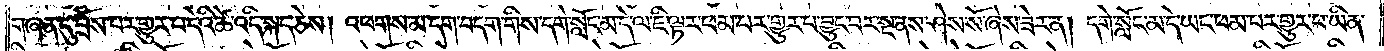གཞན་དུ་བྲོས་པར་གྱུར་པ་དེའི་ཚེ་འདི་སྐད་ཅེས། འཕགས་མ་དག་བདག་གིས་དགེ་སློང་མ་དེ་ལ་ཇི་ལྟར་ཕམ་པར་གྱུར་པ་བྱུང་བར་སྔ་ནས་ཤེས་སོ་ཞེས་ཟེར་ན། དགེ་སློང་མ་དེ་ཡང་ཕམ་པར་གྱུར་པ་ཡིན་
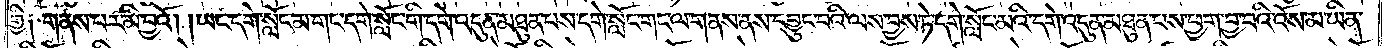གྱི༑ གནས་པར་མི་བྱའོ། །ཡང་དགེ་སློང་མ་གང་དགེ་སློང་གི་དགེ་འདུན་མཐུན་པས་དགེ་སློང་གང་ལ་གནས་ནས་དབྱུང་བའི་ལས་བྱས་ཏེ་དགེ་སློང་མའི་དགེ་འདུན་མཐུན་པས་ཕྱག་བྱ་བའི་འོས་མ་ཡིན་
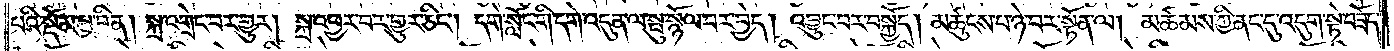པའི་སྡོམ་པ་བྱིན། སྐྲ་འགྲེང་བར་གྱུར། སྐྲ་འཕྱར་བར་གྱུར་ཅིང༌། དགེ་སློང་གི་དགེ་འདུན་ལ་སྤུ་སྙོལ་བར་བྱེད། འབྱུང་བར་བསྐྱོད། མཚུངས་པ་ཉེ་བར་སྟོན་ལ། མཚམས་ཀྱི་ནང་དུ་འདུག་སྟེ་བཟོད་
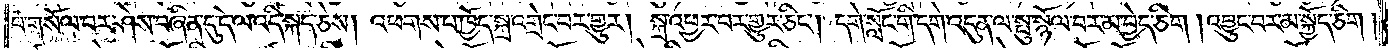པ་གསོལ་བར་ཤེས་བཞིན་དུ་དེ་ལ་འདི་སྐད་ཅེས། འཕགས་པ་ཁྱོད་སྐྲ་འགྲེང་བར་གྱུར། སྐྲ་འཕྱར་བར་གྱུར་ཅིང༌། དགེ་སློང་གི་དགེ་འདུན་ལ་སྤུ་སྙོལ་བར་མ་བྱེད་ཅིག །འབྱུང་བར་མ་སྐྱོད་ཅིག །
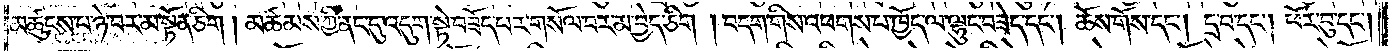མཚུངས་པ་ཉེ་བར་མ་སྟོན་ཅིག། མཚམས་ཀྱི་ནང་དུ་འདུག་སྟེ་བཟོད་པར་གསོལ་བར་མ་བྱེད་ཅིག །བདག་གིས་འཕགས་པ་ཁྱོད་ལ་ལྷུང་བཟེད་དང༌། ཆོས་གོས་དང༌། དྲ་བ་དང༌། ཕོར་བུ་དང༌།
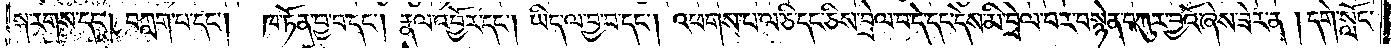སྐ་རགས་དང༌། བཀླག་པ་དང༌། ཁ་ཏོན་བྱ་བ་དང༌། རྣལ་འབྱོར་དང༌། ཡིད་ལ་བྱ་བ་དང༌། འཕགས་པ་ལ་ཅི་དང་ཅིས་བྲེལ་བ་དེ་དང་དེས་མི་བྲེལ་བར་བསྙེན་བཀུར་བྱའོ་ཞེས་ཟེར་ན། དགེ་སློང་
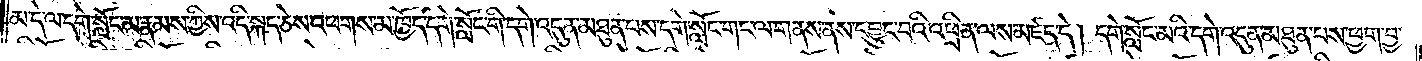མ་དེ་ལ་དགེ་སློང་མ་རྣམས་ཀྱིས་འདི་སྐད་ཅེས་འཕགས་མ་ཁྱོད་དགེ་སློང་གི་དགེ་འདུན་མཐུན་པས་དགེ་སློང་གང་ལ་གནས་ནས་དབྱུང་བའི་འཕྲིན་ལས་མཛད་དེ། དགེ་སློང་མའི་དགེ་འདུན་མཐུན་པས་ཕྱག་བྱ་
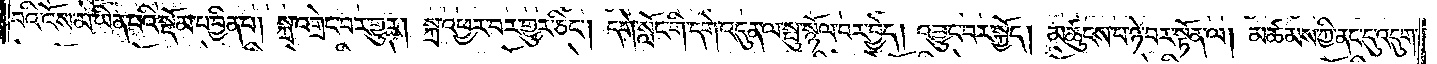བའི་འོས་མ་ཡིན་པའི་སྡོམ་པ་བྱིན་པ། སྐྲ་འགྲེང་བར་གྱུར། སྐྲ་འཕྱར་བར་གྱུར་ཅིང༌། དགེ་སློང་གི་དགེ་འདུན་ལ་སྤུ་སྙོལ་བར་བྱེད། འབྱུང་བར་སྐྱོད། མཚུངས་པ་ཉེ་བར་སྟོན་ལ། མཚམས་ཀྱི་ནང་དུ་འདུག་
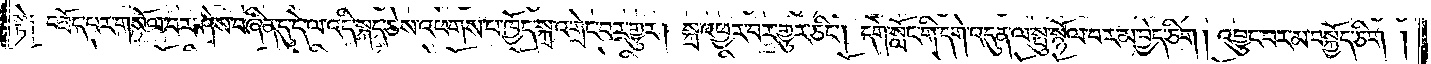སྟེ༑ བཟོད་པར་གསོལ་བར་ཤེས་བཞིན་དུ་དེ་ལ་འདི་སྐད་ཅེས་འཕགས་པ་ཁྱོད་སྐྲ་འགྲེང་བར་གྱུར། སྐྲ་འཕྱར་བར་གྱུར་ཅིང༌། དགེ་སློང་གི་དགེ་འདུན་ལ་སྤུ་སྙོལ་བར་མ་བྱེད་ཅིག། འབྱུང་བར་མ་བསྐྱོད་ཅིག །
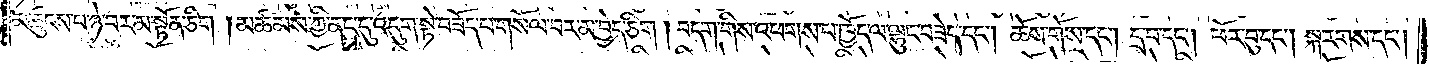མཚུངས་པ་ཉེ་བར་མ་སྟོན་ཅིག །མཚམས་ཀྱི་ནང་དུ་འདུག་སྟེ་བཟོད་པ་གསོལ་བར་མ་བྱེད་ཅིག། བདག་གིས་འཕགས་པ་ཁྱོད་ལ་ལྷུང་བཟེད་དང༌། ཆོས་གོས་དང༌། དྲ་བ་དང༌། ཕོར་བུ་དང༌། སྐ་རགས་དང༌།
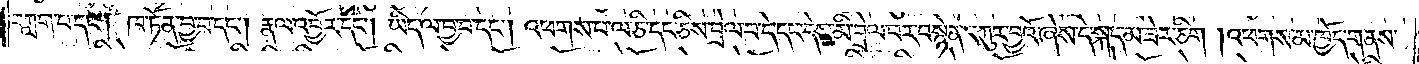བཀླག་པ་དང༌། ཁ་ཏོན་བྱ་བ་དང༌། རྣལ་འབྱོར་དང༌། ཡིད་ལ་བྱ་བ་དང༌། འཕགས་པ་ལ་ཅི་དང་ཅིས་བྲེལ་བ་དེ་དང་དེས་མི་བྲེལ་བར་བསྙེན་བཀུར་བྱའོ་ཞེས་དེ་སྐད་མ་ཟེར་ཅིག །འཕགས་མ་ཁྱོད་གནས་
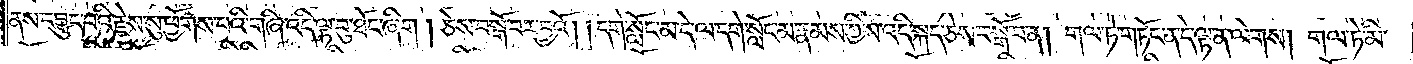ནས་དབྱུང་བའི་རྗེས་སུ་ཕྱོགས་པའི་གཞི་འདི་ལྟ་བུ་ཐོང་ཞིག། ཅེས་བསྒོ་བར་བྱའོ། །དགེ་སློང་མ་དེ་ལ་དགེ་སློང་མ་རྣམས་ཀྱིས་འདི་སྐད་ཅེས་བསྒོ་བ་ན། གལ་ཏེ་གཏོང་ན་དེ་ལྟ་ན་ལེགས། གལ་ཏེ་མི་
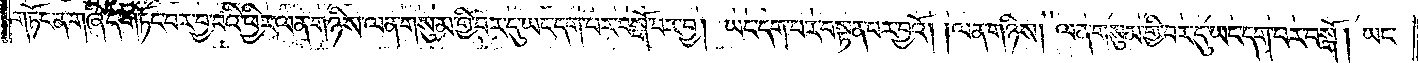གཏོང་ན་གཞི་དེ་གཏོང་བར་བྱ་བའི་ཕྱིར་ལན་གཉིས་ལན་གསུམ་གྱི་བར་དུ་ཡང་དག་པར་བསྒོ་བར་བྱ། ཡང་དག་པར་བསྟན་པར་བྱའོ། །ལན་གཉིས། ལན་གསུམ་གྱི་བར་དུ་ཡང་དག་པར་བསྒོ། ཡང་
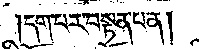དག་པར་བསྟན་པ་ན།
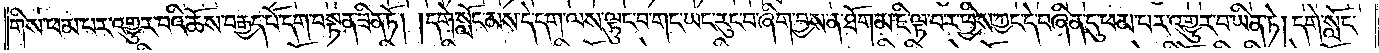གིས་ཕམ་པར་འགྱུར་བའི་ཆོས་བརྒྱད་པོ་དག་བསྟན་ཟིན་ཏོ། །དགེ་སློང་མས་དེ་དག་ལས་ལྟུང་བ་གང་ཡང་རུང་བ་ཞིག་བྱས་ན་ཐོག་མ་ཇི་ལྟ་བར་ཕྱིས་ཀྱང་དེ་བཞིན་དུ་ཕམ་པར་འགྱུར་བ་ཡིན་ཏེ། དགེ་སློང་
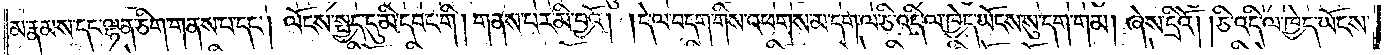མ་རྣམས་དང་ལྷན་ཅིག་གནས་པ་དང༌། ལོངས་སྤྱད་དུ་མི་དབང་གི། གནས་པར་མི་བྱའོ། །དེ་ལ་བདག་གིས་འཕགས་མ་དག་ལ་ཅི་འདི་ལ་ཁྱེད་ཡོངས་སུ་དག་གམ། ཞེས་དྲིའོ། །ཅི་འདི་ལ་ཁྱེད་ཡོངས་
